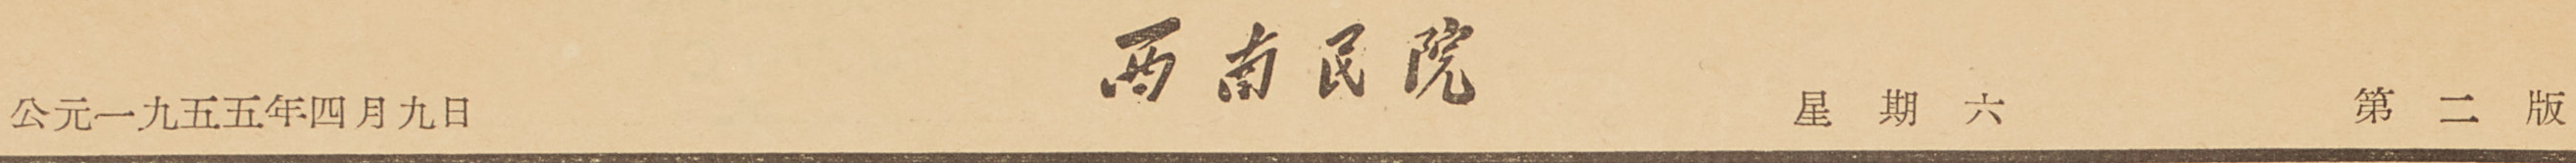公元一九五五年四月九日 西南民院 星期六 第二版
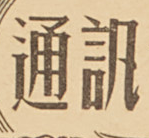通訊
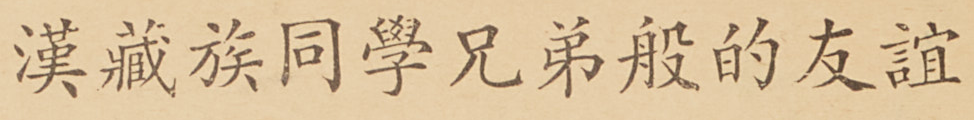漢藏族同學兄弟般的友誼
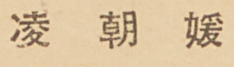凌朝媛
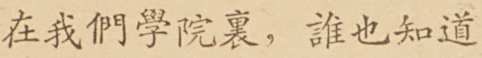在我們學院裏，誰也知道
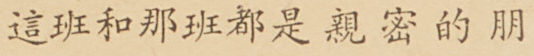這班和那班都是親密的朋
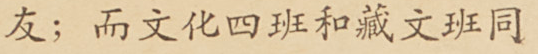友；而文化四班和藏文版同
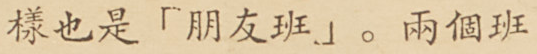樣也是「朋友班」。兩個班
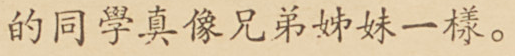的同學真像兄弟姊妹一樣。
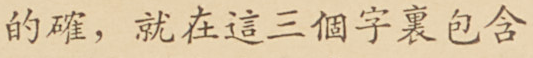的確，就在這三個字裏包含
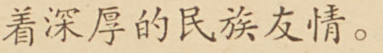着深厚的民族友情。
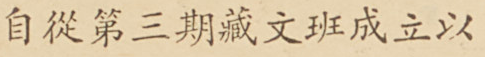自從第三期藏文班成立以
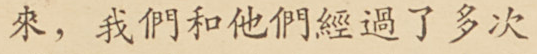來，我們和他們經過了多次
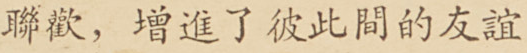聯歡，增進了彼此間的友誼
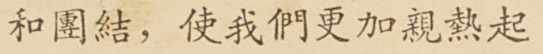和團結，使我們更加親熱起
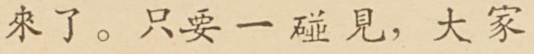來了。只要一碰見，大家
